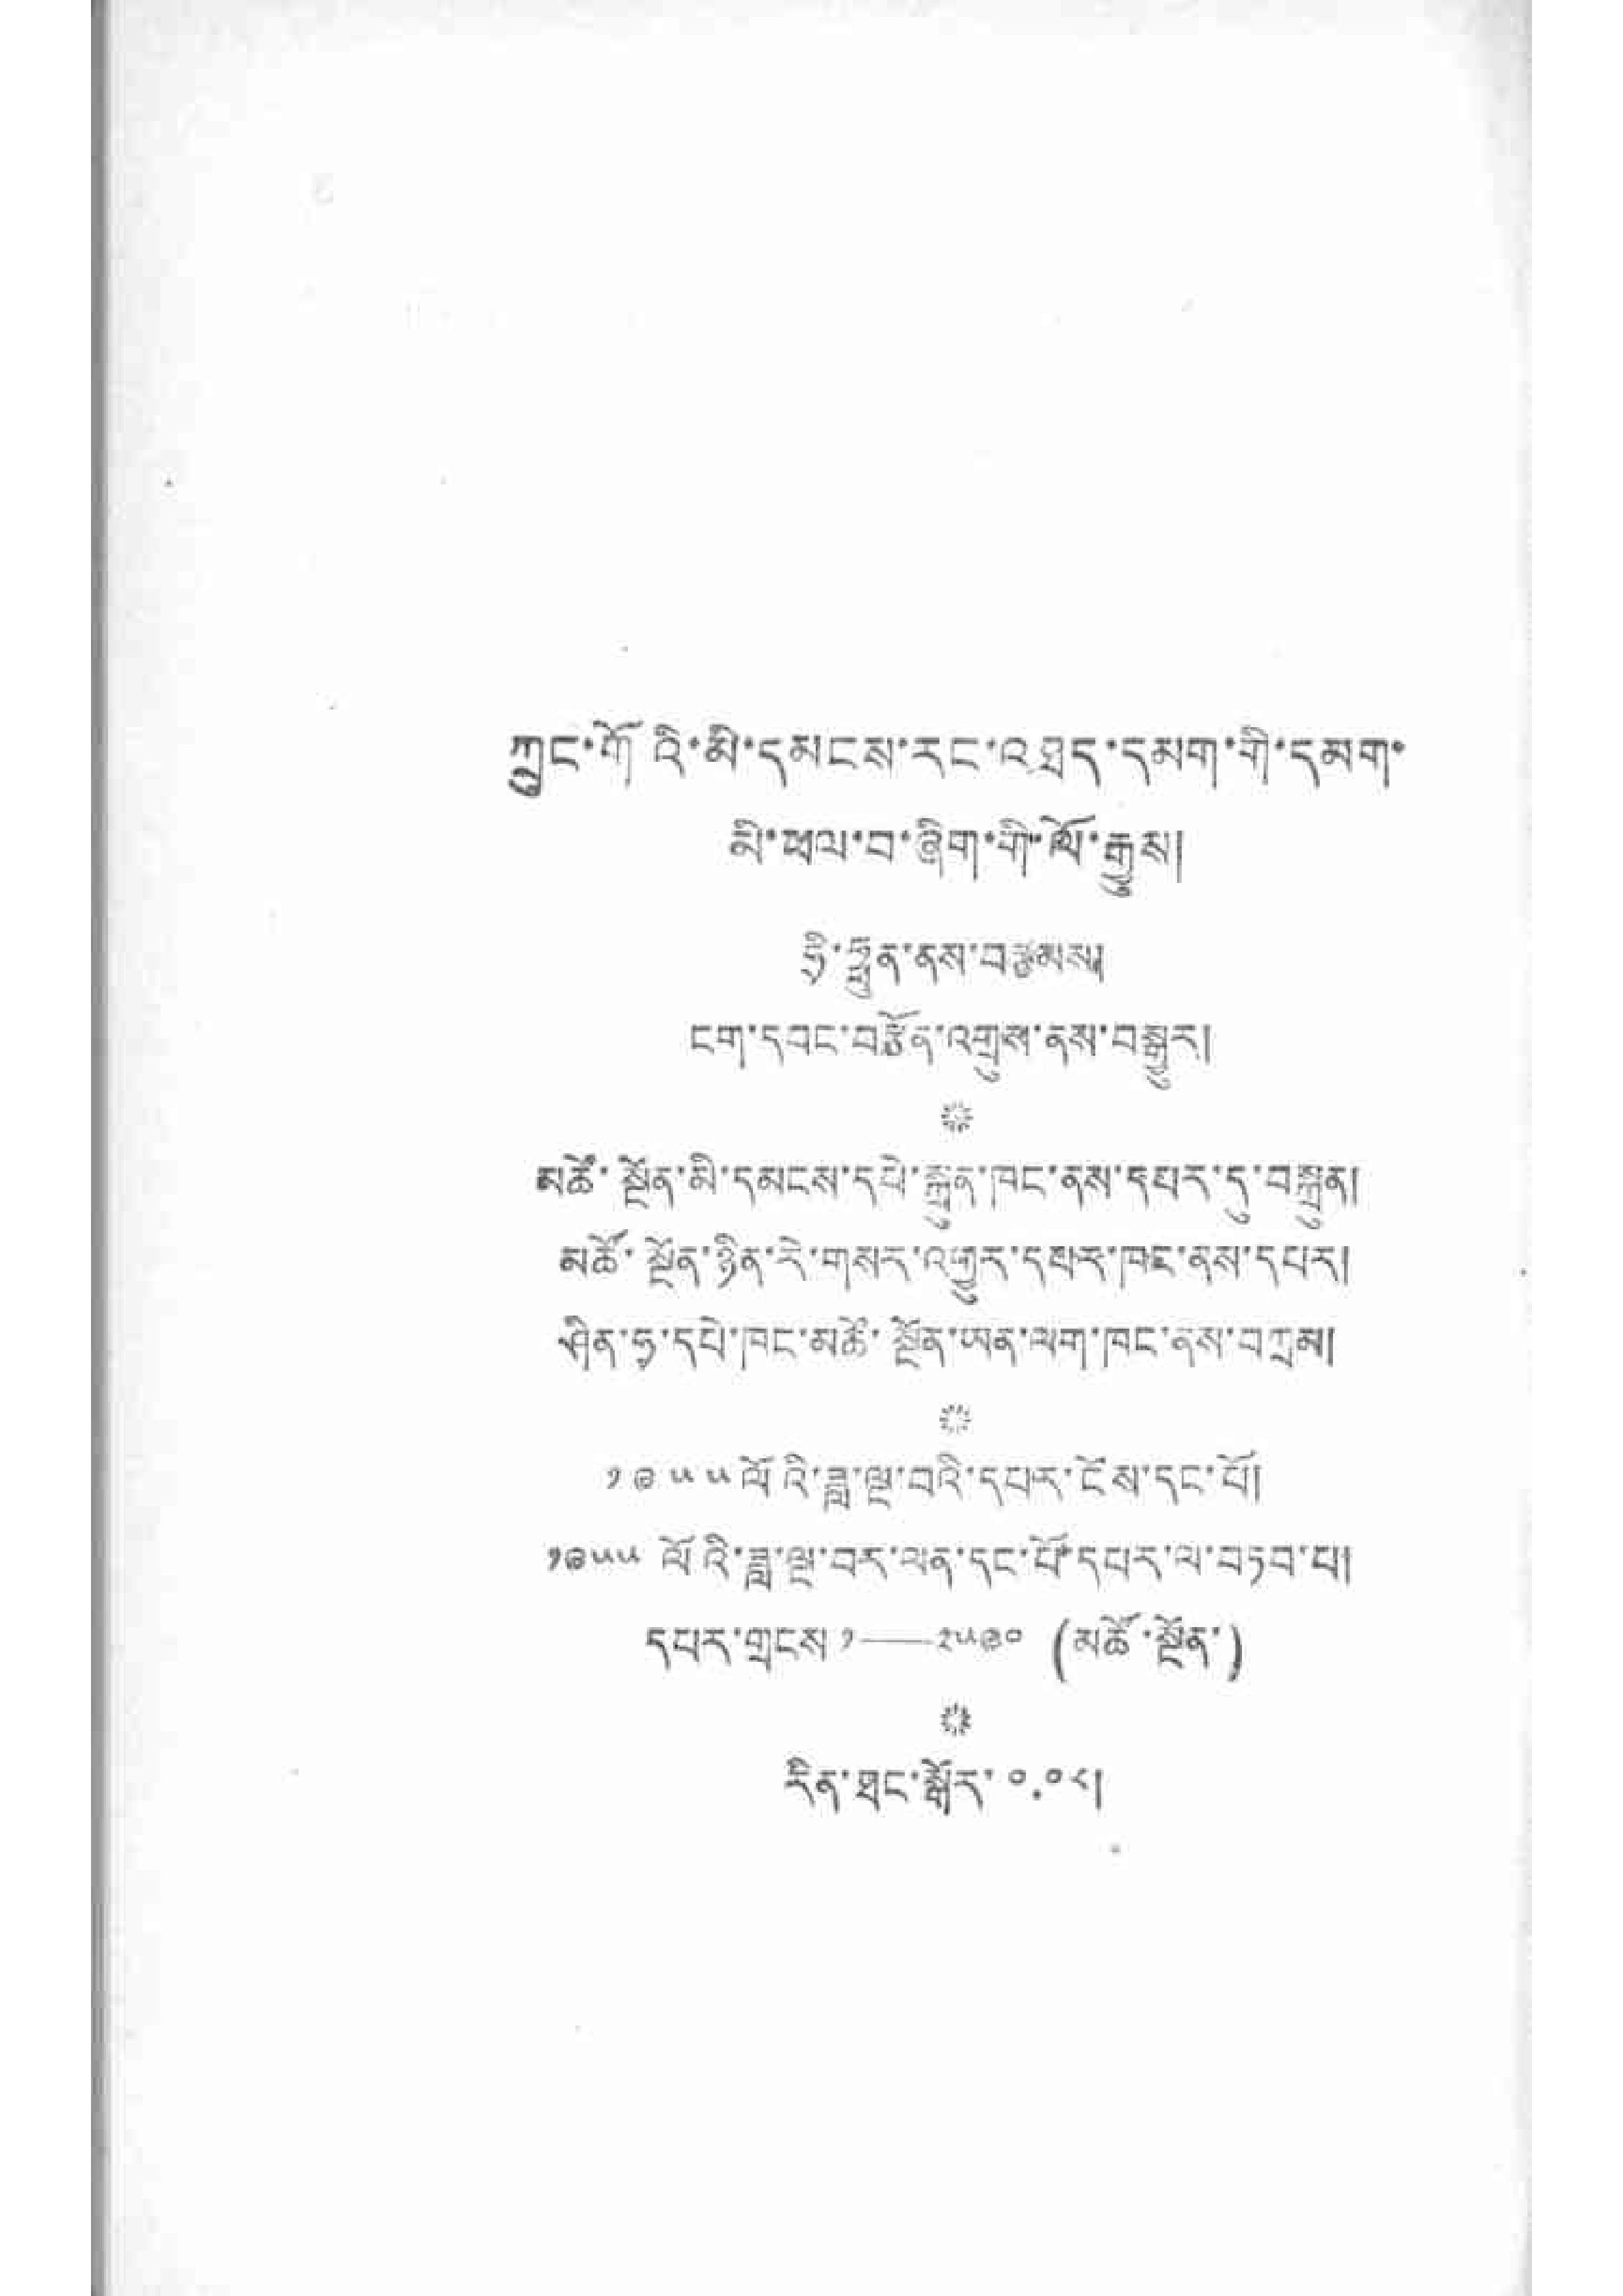ཀྲུང་གོའི་མི་དམངས་རང་འཐད་དམག་གི་དམག་
མི་ཕལ་བ་ཞིག་གི་ལོ་རྒྱུས།
ཧྲི་ཧྥུན་ནས་བརྩམས།
ངག་དབང་བརྩོན་འགྲུས་ནས་བསྒྱུར།
མཚོ་སྔོན་མི་དམངས་དཔེ་སྐྲུན་ཁང་ནས་དཔར་དུ་བསྐྲུན།
མཚོ་ལྔོན་ཉིན་རེ་གསར་འགྱུར་དཔར་ཁད་ནས་དཔར།
ཤིན་ཧྭ་དཔེ་ཁང་མཚོ་སྔོན་ཡན་ལག་ཁང་ནས་བཀྲམ།
༡༩༥༥ ལོའི་ཟླ་ལྔ་བའི་དཔར་ངོས་དང་པོ།
༡༩༥༥ ལོའི་ཟླ་ལྔ་བར་ལན་དང་པོ་དཔར་ལ་བཏབ་པ།
དཔར་གྲངས་ ༡—༢༥༩༠ (མཚོ་སྔོན་)
རིན་ཐང་སྒོར་༠,༠༨།
